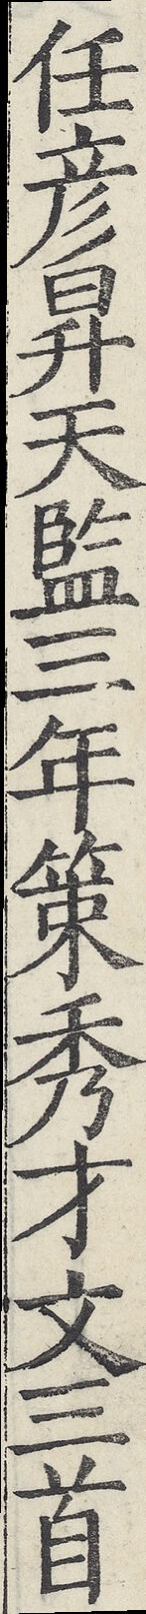任彥昇天監三年策秀才三首
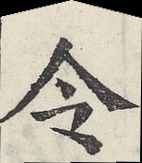令
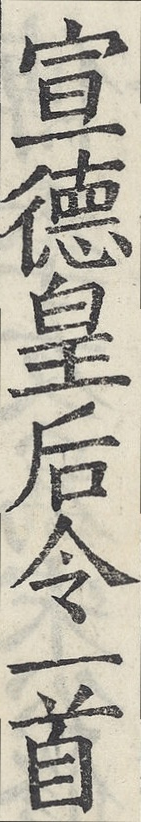宣德皇后令一首
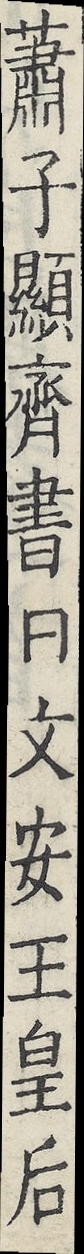蕭子顯齊書曰文安王皇后
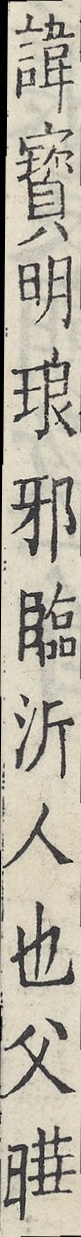諱寶明琅邪臨沂人也父曄
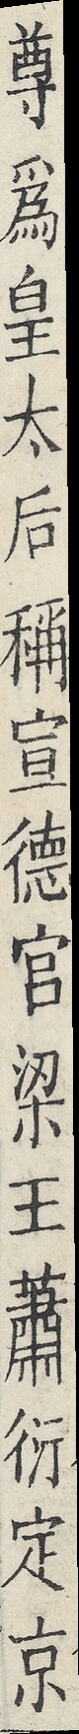尊為皇太后稱宣德宮梁王蕭衍定京
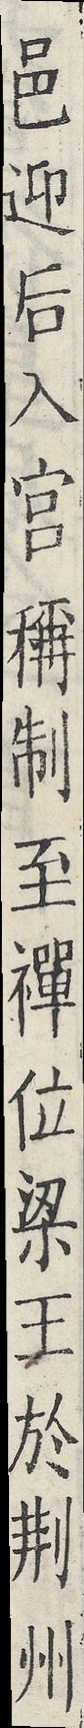邑迎后入宮稱制至禪位梁王於荊州
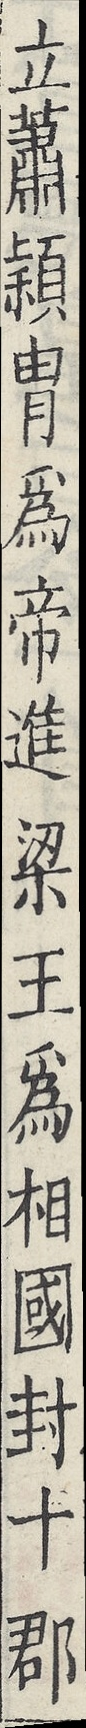立蕭穎冑為帝進梁王為相國封十郡
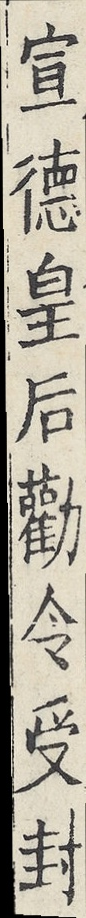宣德皇后勸令受封
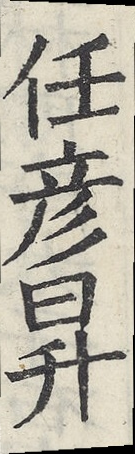任彥昇
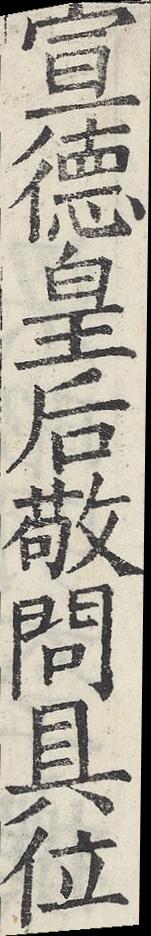宣德皇后敬問具位
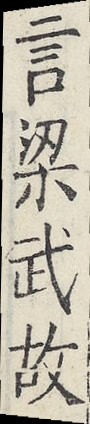言梁武故
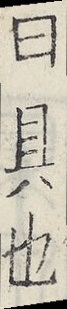曰具也
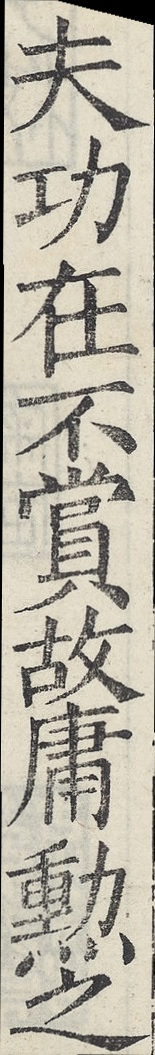夫功在不賞故庸勳之
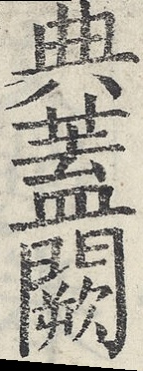典蓋闕
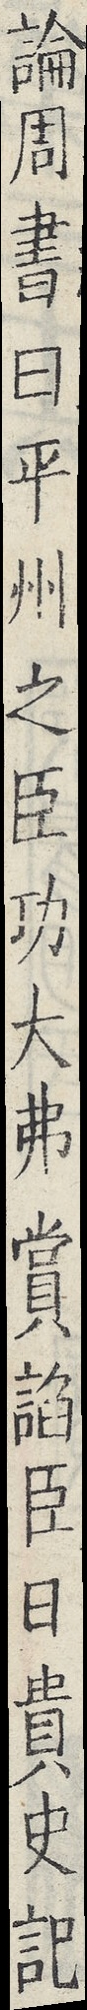論周書曰平州之臣功大弗賞諂臣日貴史記
